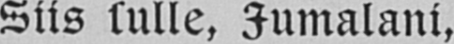Siis sulle, Jumalani,
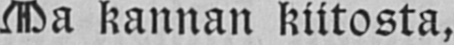Ma kannan kiitosta,
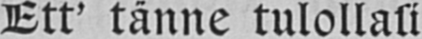Ett' tänne tulollasi
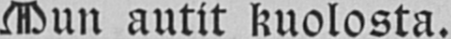Mun autit kuolosta.
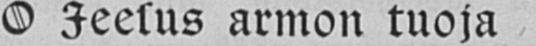O Jeesus armon tuoja
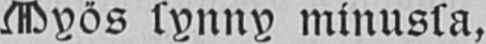Myös synny minussa,
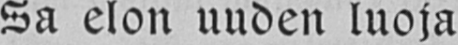Sa elon uuden luoja
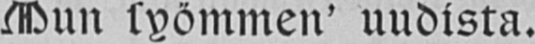Mun syömmen' uudista.
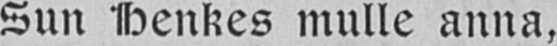Sun Henkes mulle anna,
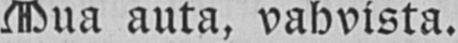Mua auta, vahvista.
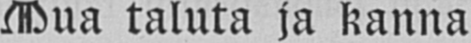Mua taluta ja kanna
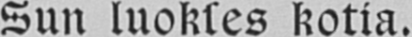Sun luokses kotia.
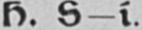H. S-i.
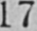17
